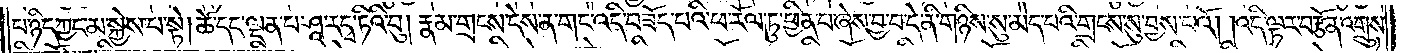པ་ཉིད་ཀྱང་མ་སྐྱེས་པ་སྟེ། ཚེ་དང་ལྡན་པ་ཤཱ་ར་དྭ་ཏིའི་བུ། རྣམ་གྲངས་དེས་ན་གང་འདི་བཟོད་པའི་ཕ་རོལ་ཏུ་ཕྱིན་པ་ཞེས་བྱ་བ་དེ་ནི་གཉིས་སུ་མེད་པའི་གྲངས་སུ་བྱས་པའོ། །འདི་ལྟར་བརྩོན་འགྲུས་
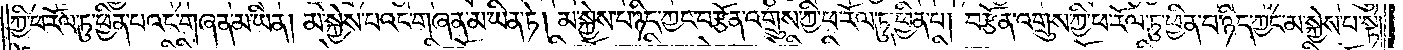ཀྱི་ཕ་རོལ་ཏུ་ཕྱིན་པའང་གཞན་མ་ཡིན། མ་སྐྱེས་པའང་གཞན་མ་ཡིན་ཏེ། མ་སྐྱེས་པ་ཉིད་ཀྱང་བརྩོན་འགྲུས་ཀྱི་ཕ་རོལ་ཏུ་ཕྱིན་པ། བརྩོན་འགྲུས་ཀྱི་ཕ་རོལ་ཏུ་ཕྱིན་པ་ཉིད་ཀྱང་མ་སྐྱེས་པ་སྟེ།
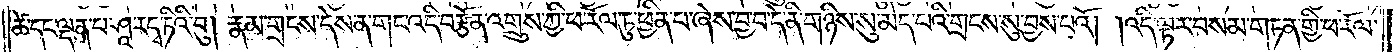ཚེ་དང་ལྡན་པ་ཤཱ་ར་དྭ་ཏིའི་བུ། རྣམ་གྲངས་དེས་ན་གང་འདི་བརྩོན་འགྲུས་ཀྱི་ཕ་རོལ་ཏུ་ཕྱིན་པ་ཞེས་བྱ་བ་དེ་ནི་གཉིས་སུ་མེད་པའི་གྲངས་སུ་བྱས་པའོ། །འདི་ལྟར་བསམ་གཏན་གྱི་ཕ་རོལ་
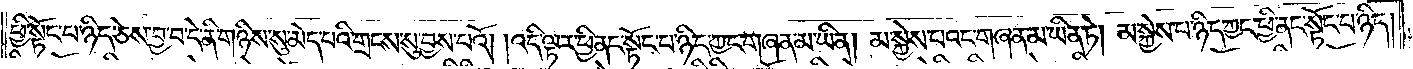ཕྱི་སྟོང་པ་ཉིད་ཅེས་བྱ་བ་དེ་ནི་གཉིས་སུ་མེད་པའི་གྲངས་སུ་བྱས་པའོ། །འདི་ལྟར་ཕྱི་ནང་སྟོང་པ་ཉིད་ཀྱང་གཞན་མ་ཡིན། མ་སྐྱེས་པའང་གཞན་མ་ཡིན་ཏེ། མ་སྐྱེས་པ་ཉིད་ཀྱང་ཕྱི་ནང་སྟོང་པ་ཉིད།
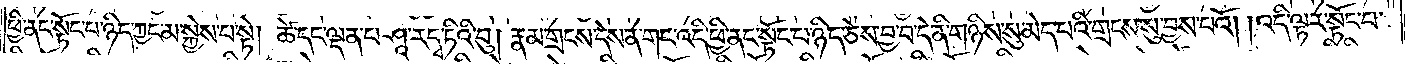ཕྱི་ནང་སྟོང་པ་ཉིད་ཀྱང་མ་སྐྱེས་པ་སྟེ། ཚེ་དང་ལྡན་པ་ཤཱ་ར་དྭ་ཏིའི་བུ། རྣམ་གྲངས་དེས་ན་གང་འདི་ཕྱི་ནང་སྟོང་པ་ཉིད་ཅེས་བྱ་བ་དེ་ནི་གཉིས་སུ་མེད་པའི་གྲངས་སུ་བྱས་པའོ། །འདི་ལྟར་སྟོང་པ་
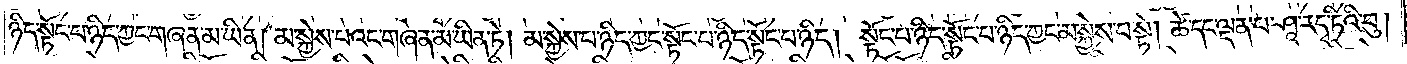ཉིད་སྟོང་པ་ཉིད་ཀྱང་གཞན་མ་ཡིན། མ་སྐྱེས་པའང་གཞན་མ་ཡིན་ཏེ། མ་སྐྱེས་པ་ཉིད་ཀྱང་སྟོང་པ་ཉིད་སྟོང་པ་ཉིད། སྟོང་པ་ཉིད་སྟོང་པ་ཉིད་ཀྱང་མ་སྐྱེས་པ་སྟེ། ཚེ་དང་ལྡན་པ་ཤཱ་ར་དྭ་ཏིའི་བུ།
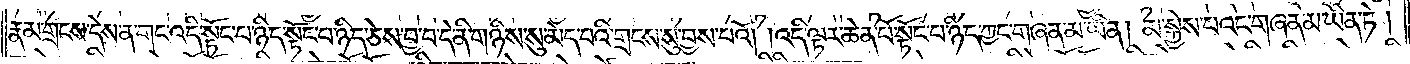རྣམ་གྲངས་དེས་ན་གང་འདི་སྟོང་པ་ཉིད་སྟོང་པ་ཉིད་ཅེས་བྱ་བ་དེ་ནི་གཉིས་སུ་མེད་པའི་གྲངས་སུ་བྱས་པའོ། །འདི་ལྟར་ཆེན་པོ་སྟོང་པ་ཉིད་ཀྱང་གཞན་མ་ཡིན། མ་སྐྱེས་པའང་གཞན་མ་ཡིན་ཏེ།
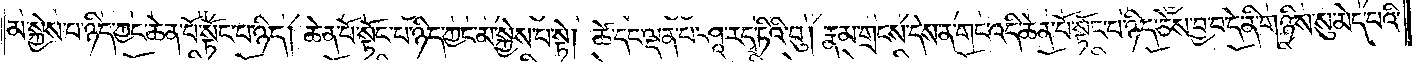མ་སྐྱེས་པ་ཉིད་ཀྱང་ཆེན་པོ་སྟོང་པ་ཉིད། ཆེན་པོ་སྟོང་པ་ཉིད་ཀྱང་མ་སྐྱེས་པ་སྟེ། ཚེ་དང་ལྡན་པ་ཤཱ་ར་དྭ་ཏིའི་བུ། རྣམ་གྲངས་དེས་ན་གང་འདི་ཆེན་པོ་སྟོང་པ་ཉིད་ཅེས་བྱ་བ་དེ་ནི་གཉིས་སུ་མེད་པའི་
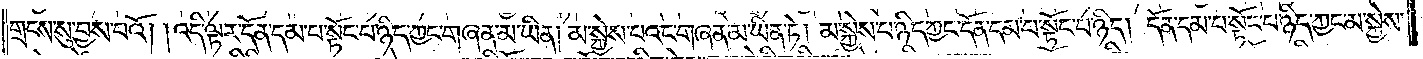གྲངས་སུ་བྱས་པའོ། །འདི་ལྟར་དོན་དམ་པ་སྟོང་པ་ཉིད་ཀྱང་གཞན་མ་ཡིན། མ་སྐྱེས་པའང་གཞན་མ་ཡིན་ཏེ། མ་སྐྱེས་པ་ཉིད་ཀྱང་དོན་དམ་པ་སྟོང་པ་ཉིད། དོན་དམ་པ་སྟོང་པ་ཉིད་ཀྱང་མ་སྐྱེས་
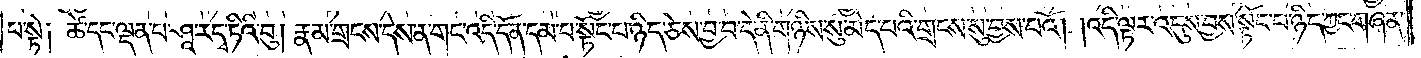པ་སྟེ༏ ཚེ་དང་ལྡན་པ་ཤཱ་ར་དྭ་ཏིའི་བུ། རྣམ་གྲངས་དེས་ན་གང་འདི་དོན་དམ་པ་སྟོང་པ་ཉིད་ཅེས་བྱ་བ་དེ་ནི་གཉིས་སུ་མེད་པའི་གྲངས་སུ་བྱས་པའོ། །འདི་ལྟར་འདུས་བྱས་སྟོང་པ་ཉིད་ཀྱང་གཞན་
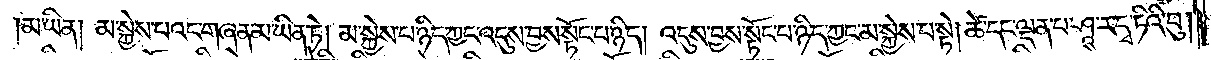མ་ཡིན། མ་སྐྱེས་པའང་གཞན་མ་ཡིན་ཏེ། མ་སྐྱེས་པ་ཉིད་ཀྱང་འདུས་བྱས་སྟོང་པ་ཉིད། འདུས་བྱས་སྟོང་པ་ཉིད་ཀྱང་མ་སྐྱེས་པ་སྟེ། ཚེ་དང་ལྡན་པ་ཤཱ་ར་དྭ་ཏིའི་བུ།
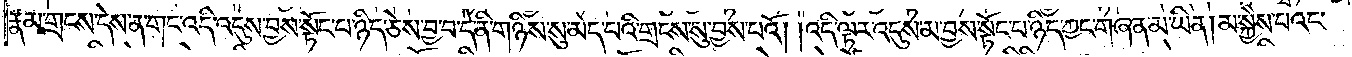རྣམ་གྲངས་དེས་ན་གང་འདི་འདུས་བྱས་སྟོང་པ་ཉིད་ཅེས་བྱ་བ་དེ་ནི་གཉིས་སུ་མེད་པའི་གྲངས་སུ་བྱས་པའོ། །འདི་ལྟར་འདུས་མ་བྱས་སྟོང་པ་ཉིད་ཀྱང་གཞན་མ་ཡིན། མ་སྐྱེས་པའང་
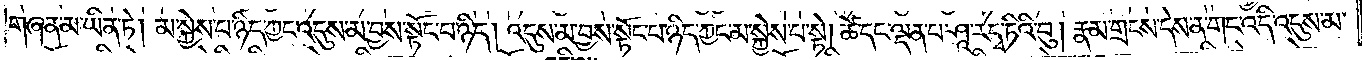གཞན་མ་ཡིན་ཏེ། མ་སྐྱེས་པ་ཉིད་ཀྱང་འདུས་མ་བྱས་སྟོང་པ་ཉིད། འདུས་མ་བྱས་སྟོང་པ་ཉིད་ཀྱང་མ་སྐྱེས་པ་སྟེ། ཚེ་དང་ལྡན་པ་ཤཱ་ར་དྭ་ཏིའི་བུ། རྣམ་གྲངས་དེས་ན་གང་འདི་འདུས་མ་
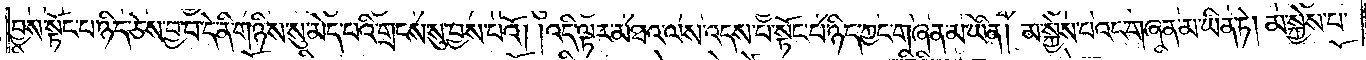བྱས་སྟོང་པ་ཉིད་ཅེས་བྱ་བ་དེ་ནི་གཉིས་སུ་མེད་པའི་གྲངས་སུ་བྱས་པའོ། །འདི་ལྟར་མཐའ་ལས་འདས་པ་སྟོང་པ་ཉིད་ཀྱང་གཞན་མ་ཡིན། མ་སྐྱེས་པའང་གཞན་མ་ཡིན་ཏེ། མ་སྐྱེས་པ་
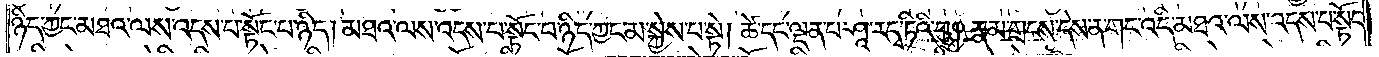ཉིད་ཀྱང་མཐའ་ལས་འདས་པ་སྟོང་པ་ཉིད། མཐའ་ལས་འདས་པ་སྟོང་པ་ཉིད་ཀྱང་མ་སྐྱེས་པ་སྟེ། ཚེ་དང་ལྡན་པ་ཤཱ་ར་དྭ་ཏིའི་བུ། རྣམ་གྲངས་དེས་ན་གང་འདི་མཐའ་ལས་འདས་པ་སྟོང་
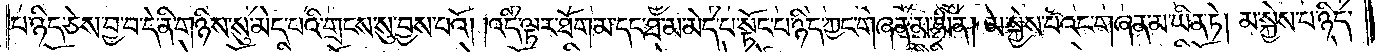པ་ཉིད་ཅེས་བྱ་བ་དེ་ནི་གཉིས་སུ་མེད་པའི་གྲངས་སུ་བྱས་པའོ། །འདི་ལྟར་ཐོག་མ་དང་ཐ་མ་མེད་པའི་སྟོང་པ་ཉིད་ཀྱང་གཞན་མ་ཡིན། མ་སྐྱེས་པའང་གཞན་མ་ཡིན་ཏེ། མ་སྐྱེས་པ་ཉིད་
